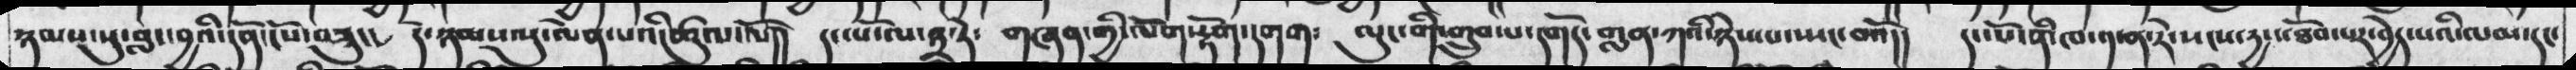ཉམས་སུ་བླང་བྱའི་དོན་ངོས་བཟུང་  དེ་ཉམས་སུ་ལེན་ཚུལ་ལོ།།  དང་པོ་ལ་༣་ཏེ་   གཞན་གྱི་ལོག་རྟོག་དགག༴   ལུང་གི་གྲུབ་པ་དགོད་གླན་ཀའི་ཉེས་པ་ཡང་བའོ།།  དང་པོ་ནི་ཁ་༡་ན་རེ་སངས་དྱས་ཐོབ་པར་བྱེད་པའི་ལམ་དང་
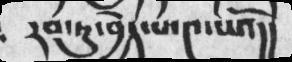རབ་ཏུ་བྱེད་པ་༤་པའོ།།
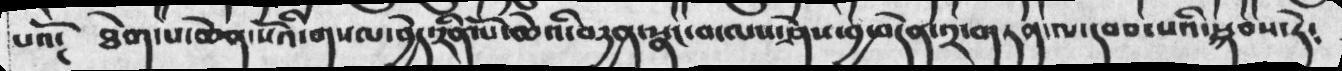པའོ༴   ཐེག་པ་ཆེན་པོའི་གསལ་བྱེད་རིན་པོ་ཆེའི་བདྱན་སྣང་བ་ལས་ཤེས་བྱ་བདེན་༢་གཏན་ལ་དབབ་པའི་སྐབས་ཏེ༴
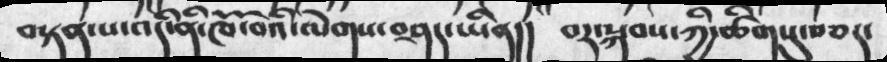བསྟན་པ་འདི་ནི་ཁོ་བོའི་ལེགས་བཤད་ཡིན།།   བར་སྐབས་ཀྱི་ཚིགསུ་བཅད་
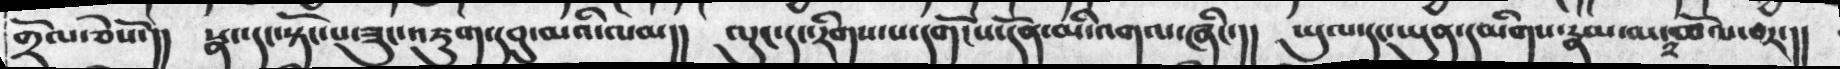གྲོལ་ཅེསོ་།།  སྣང་དང་སྟོང་པ་ཟུང་འཇུག་དབུ་མའི་ལམ།།  ལུང་དང་རིགས་པ་དགོངས་དོན་མི་འགལ་ཞིང་།།  ཡུལ་དང་ཡུན་དམིགས་རྣམ་མ་འཆོལ་བར་།།
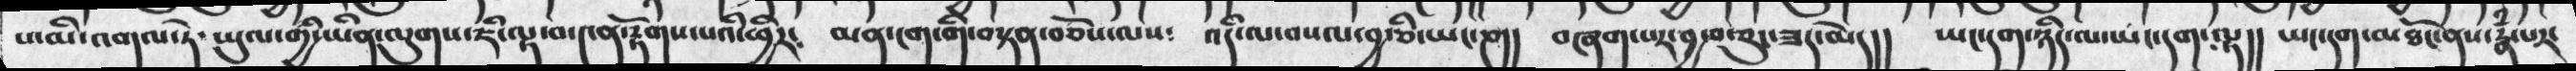པ་མི་འགལ་ཏེ་ཡུལ་གྱི་ཡིན་ལུགས་ཇི་ལྟ་བ་༤ན་རྟོགས་པའི་ཕྱིར༴   མན་ངག་གི་བསསྟན་བཅོས་ལས༴    འདི་ལ་བསལ་བྱ་ཅི་ཡང་ཎ།།  བཞག་པར་བྱ་བ་ཅུང་ཟད་མེད།།   ཡང་དག་ཉིད་ལས་ཡང་དག་ལྟ།།  ཡང་དག་མཐོང་ནས་རྣཾ་པར་
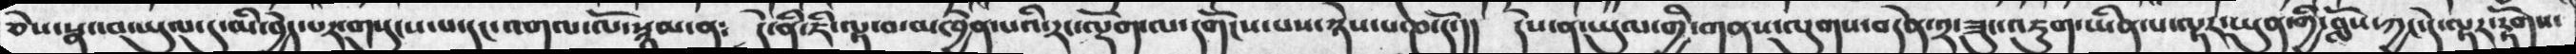ཅེས་སྣང་བ་ཡུལ་དུ་མི་བྱེད་པར་གསུངས་པ་དང་འགལ་ལོ་སྙམ་ན༴  དེ་ནི་ཇི་ལྟ་བ་མཁྱེན་པའི་རང་ལྡོག་ལ་དགོངས་པས་ཉེས་པ་ཎ་དོ་།།  དེས་ན་ཡུལ་གྱི་གནས་ལུགས་བདེན་༢་ཟུང་འཇུག་ཡིན་པ་ལྟར་ཡུལ་གྱི་བློས་ཀྱང་དེ་ལྟར་རྟོགས་
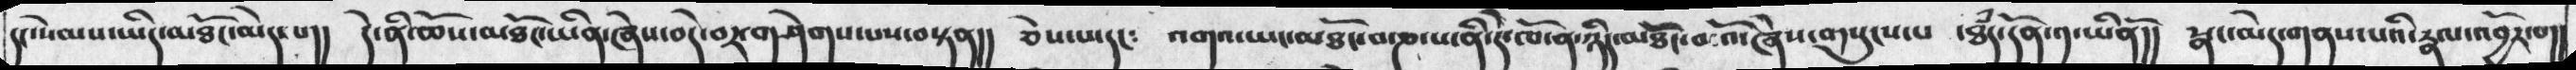དང་སེམས་ཡིད་མཐོང་མེད་པ།།    དེ་ནི་ཆོས་མཐོང་ཡིན་ཞེས་བདེ་བར་གཤེགས་པས་བསྟན།།     ཅེས་པ་དང༴   འགའ་ཡང་མཐོང་བ་ཎ་པ་ནི་དེ་ཁོ་ན་ཉིད་མཐོང་བ་འོ་ཞེས་གསུངས་པ་   ཐཾད་དོན་༡་ཡིནོ།།  སྣང་མེད་གནས་པའི་རྣལ་འབྱོར་པ།།
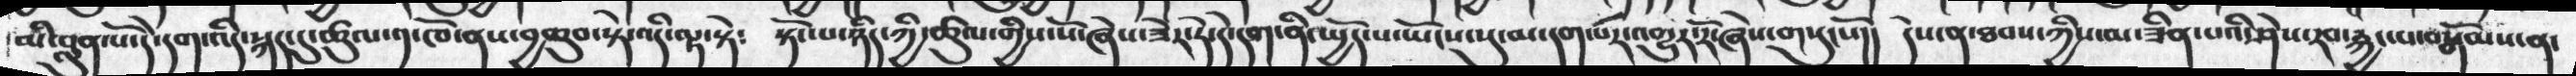མི་བླུན་པོ་དེ་དག་འདི་སྐད་དུ་ཚུལ་༡་ཁོ་ནས་བྱང་ཆུབ་སྟེ་འདི་ལྟ་སྟེ༴  སྟོང་པ་ཉིད་ཀྱི་ཚུལ་གྱིས་སོ་ཞེས་ཟེར་དེ་དེ་དག་ནི་ཡྱོད་པ་ཡོངས་སུ་མ་དག་པར་འགྱུར་རོ་ཞེས་གསུངསོ།།  དེས་ན་ཐབས་ཀྱིས་མ་ཟིན་པའི་ཤེས་རབ་རྐྱང་པ་བསྒོམས་ན་
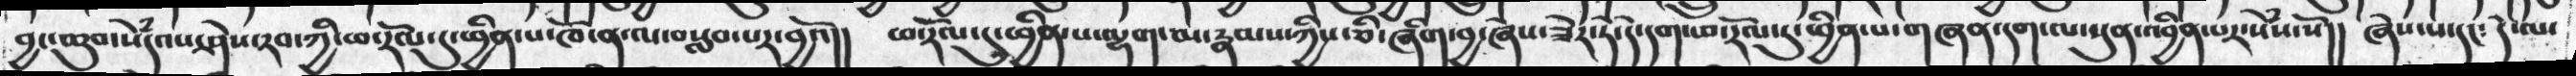བྱང་ཆུབ་སེྃདའས་ཤེས་རབ་ཀྱི་ཕ་རོལ་དུ་ཕྱིན་པ་ཁོ་ན་ལ་བསླབ་པར་བྱའོ།།  ཕ་རོལ་དུ་ཕྱིན་པ་ལྷག་མ་རྣམས་ཀྱིས་ཅི་ཞིག་བྱ་ཞེས་ཟེར་ཏེ་དེ་དག་ཕ་རོལ་དུ་ཕྱིན་པ་གཞན་དག་ལ་སུན་འབྱིན་པར་སེྃས་སོ།།   ཞེས་པ་དང༴  དེ་ལ་
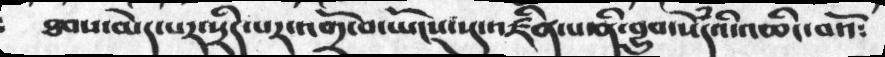ཐབས་མེད་པར་སྲིད་པར་འགྲོ་བ་ཡོངས་སུ་འཛིན་པ་ནི་བྱུབ་སེྃདའི་འཆིང་བའོ༴
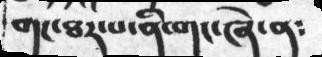གང་ཐར་པ་ནི་གང་ཞེ་ན༴
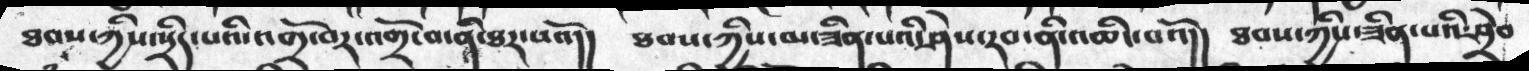ཐབས་ཀྱིས་སྲིད་པའི་འགྲོ་བར་འགྲོ་བ་ནི་ཐར་པའོ།།   ཐབས་ཀྱིས་མ་ཟིན་པའི་ཤེས་རབ་ནི་འཆང་པའོ།།  ཐབས་ཀྱིས་ཟིན་པའི་ཤྲེབ
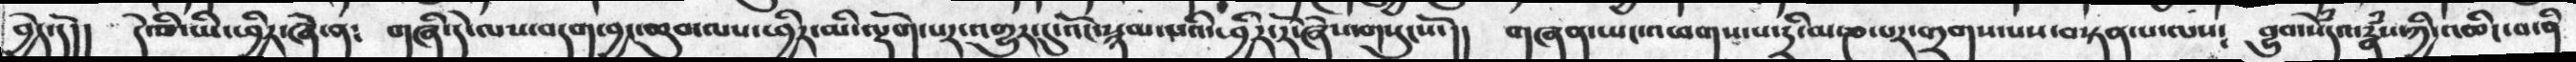བྱེད་དོ།།  དེ་ཅི་ཡི་ཕྱིར་ཞེ་ན༴   གཞི་དེ་ལས་བདག་བྱང་ཆུབ་ལས་ཕྱིར་མི་ལྡོག་པར་འགྱུར་དུ་འོང་སྙམ་པའི་ཕྱིར་རོ་ཞེས་གསུངསོ་།།  གཞན་ཡང་འཕགས་པ་དྲི་མ་ཎ་པར་གྲགས་པས་བསྟན་པ་ལས༴  བྱུབ་སེྃདའ་རྣཾས་ཀྱི་འཆིང་བ་ནི
